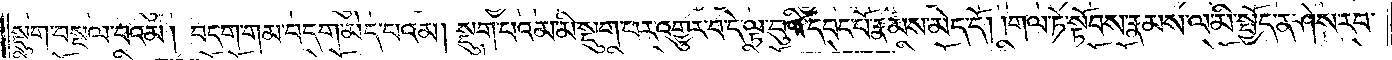སྡུག་བསྔལ་བའམ། བདག་གམ་བདག་མེད་པའམ། སྡུག་པའམ་མི་སྡུག་པར་འགྱུར་བ་དེ་ལྟ་བུའི་དབང་པོ་རྣམས་མེད་དོ། །གལ་ཏེ་སྟོབས་རྣམས་ལ་མི་སྤྱོད་ན་ཤེས་རབ་
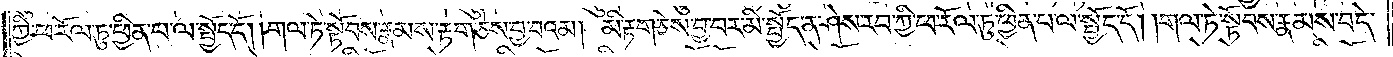ཀྱི་ཕ་རོལ་ཏུ་ཕྱིན་པ་ལ་སྤྱོད་དོ། །གལ་ཏེ་སྟོབས་རྣམས་རྟག་ཅེས་བྱ་བའམ། མི་རྟག་ཅེས་བྱ་བར་མི་སྤྱོད་ན་ཤེས་རབ་ཀྱི་ཕ་རོལ་ཏུ་ཕྱིན་པ་ལ་སྤྱོད་དོ། །གལ་ཏེ་སྟོབས་རྣམས་བདེ་
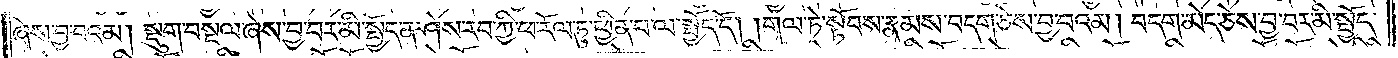ཞེས་བྱ་བའམ། སྡུག་བསྔལ་ཞེས་བྱ་བར་མི་སྤྱོད་ན་ཤེས་རབ་ཀྱི་ཕ་རོལ་ཏུ་ཕྱིན་པ་ལ་སྤྱོད་དོ། །གལ་ཏེ་སྟོབས་རྣམས་བདག་ཅེས་བྱ་བའམ། བདག་མེད་ཅེས་བྱ་བར་མི་སྤྱོད་
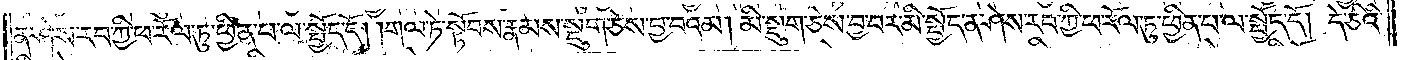ན་ཤེས་རབ་ཀྱི་ཕ་རོལ་ཏུ་ཕྱིན་པ་ལ་སྤྱོད་དོ། །གལ་ཏེ་སྟོབས་རྣམས་སྡུག་ཅེས་བྱ་བའམ། མི་སྡུག་ཅེས་བྱ་བར་མི་སྤྱོད་ན་ཤེས་རབ་ཀྱི་ཕ་རོལ་ཏུ་ཕྱིན་པ་ལ་སྤྱོད་དོ། །དེ་ཅིའི་
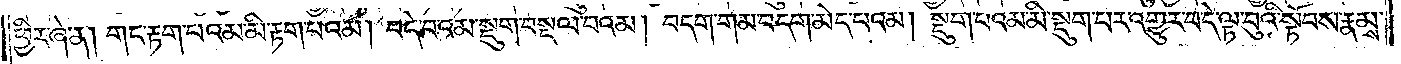ཕྱིར་ཞེ་ན། གང་རྟག་པའམ་མི་རྟག་པའམ། བདེ་བའམ་སྡུག་བསྔལ་བའམ། བདག་གམ་བདག་མེད་པའམ། སྡུག་པའམ་མི་སྡུག་པར་འགྱུར་བ་དེ་ལྟ་བུའི་སྟོབས་རྣམས་
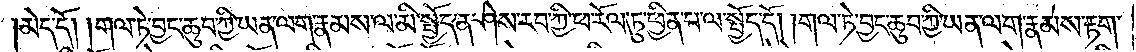མེད་དོ། །གལ་ཏེ་བྱང་ཆུབ་ཀྱི་ཡན་ལག་རྣམས་ལ་མི་སྤྱོད་ན་ཤེས་རབ་ཀྱི་ཕ་རོལ་ཏུ་ཕྱིན་པ་ལ་སྤྱོད་དོ། །གལ་ཏེ་བྱང་ཆུབ་ཀྱི་ཡན་ལག་རྣམས་རྟག་
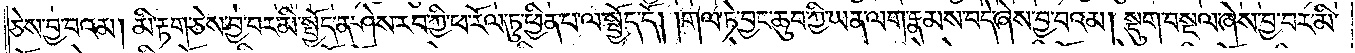ཅེས་བྱ་བའམ། མི་རྟག་ཅེས་བྱ་བར་མི་སྤྱོད་ན་ཤེས་རབ་ཀྱི་ཕ་རོལ་ཏུ་ཕྱིན་པ་ལ་སྤྱོད་དོ། །གལ་ཏེ་བྱང་ཆུབ་ཀྱི་ཡན་ལག་རྣམས་བདེ་ཞེས་བྱ་བའམ། སྡུག་བསྔལ་ཞེས་བྱ་བར་མི་
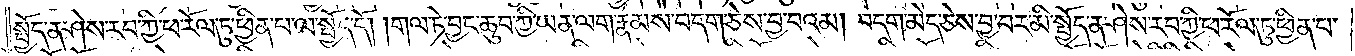སྤྱོད་ན་ཤེས་རབ་ཀྱི་ཕ་རོལ་ཏུ་ཕྱིན་པ་ལ་སྤྱོད་དོ། །གལ་ཏེ་བྱང་ཆུབ་ཀྱི་ཡན་ལག་རྣམས་བདག་ཅེས་བྱ་བའམ། བདག་མེད་ཅེས་བྱ་བར་མི་སྤྱོད་ན་ཤེས་རབ་ཀྱི་ཕ་རོལ་ཏུ་ཕྱིན་པ་
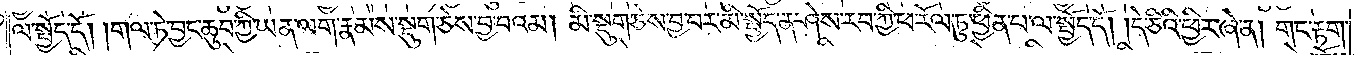ལ་སྤྱོད་དོ། །གལ་ཏེ་བྱང་ཆུབ་ཀྱི་ཡན་ལག་རྣམས་སྡུག་ཅེས་བྱ་བའམ། མི་སྡུག་ཅེས་བྱ་བར་མི་སྤྱོད་ན་ཤེས་རབ་ཀྱི་ཕ་རོལ་ཏུ་ཕྱིན་པ་ལ་སྤྱོད་དོ། །ད་ཅིའི་ཕྱིར་ཞེ་ན། གང་རྟག་
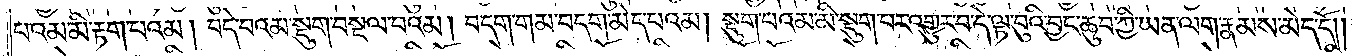པའམ་མི་རྟག་པའམ། བདེ་བའམ་སྡུག་བསྔལ་བའམ། བདག་གམ་བདག་མེད་པའམ། སྡུག་པའམ་མི་སྡུག་པར་འགྱུར་བ་དེ་ལྟ་བུའི་བྱང་ཆུབ་ཀྱི་ཡན་ལག་རྣམས་མེད་དོ། །
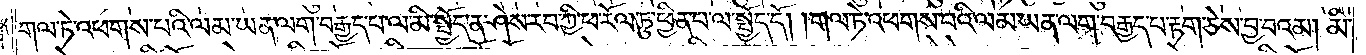གལ་ཏེ་འཕགས་པའི་ལམ་ཡན་ལག་བརྒྱད་པ་ལ་མི་སྤྱོད་ན་ཤེས་རབ་ཀྱི་ཕ་རོལ་ཏུ་ཕྱིན་པ་ལ་སྤྱོད་དོ། །གལ་ཏེ་འཕགས་པའི་ལམ་ཡན་ལག་བརྒྱད་པ་རྟག་ཅེས་བྱ་བའམ། མི་
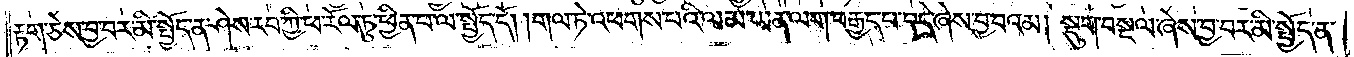རྟག་ཅེས་བྱ་བར་མི་སྤྱོད་ན་ཤེས་རབ་ཀྱི་ཕ་རོལ་ཏུ་ཕྱིན་པ་ལ་སྤྱོད་དོ། །གལ་ཏེ་འཕགས་པའི་ལམ་ཡན་ལག་བརྒྱད་པ་བདེ་ཞེས་བྱ་བའམ། སྡུག་བསྔལ་ཞེས་བྱ་བར་མི་སྤྱོད་ན་
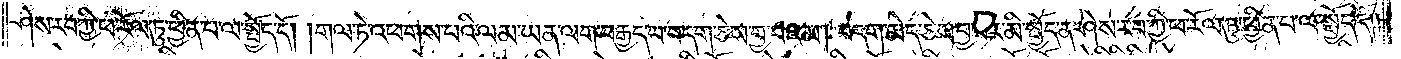ཤེས་རབ་ཀྱི་ཕ་རོལ་ཏུ་ཕྱིན་པ་ལ་སྤྱོད་དོ། །གལ་ཏེ་འཕགས་པའི་ལམ་ཡན་ལག་བརྒྱད་པ་བདག་ཅེས་བྱ་བའམ། བདག་མེད་ཅེས་བྱ་བར་མི་སྤྱོད་ན་ཤེས་རབ་ཀྱི་ཕ་རོལ་ཏུ་ཕྱིན་པ་ལ་སྤྱོད་དོ། །
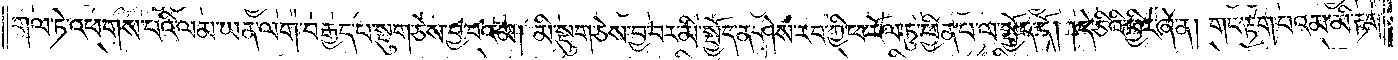གལ་ཏེ་འཕགས་པའི་ལམ་ཡན་ལག་བརྒྱད་པ་སྡུག་ཅེས་བྱ་བའམ། མི་སྡུག་ཅེས་བྱ་བར་མི་སྤྱོད་ན་ཤེས་རབ་ཀྱི་ཕ་རོལ་ཏུ་ཕྱིན་པ་ལ་སྤྱོད་དོ། །དེ་ཅིའི་ཕྱིར་ཞེ་ན། གང་རྟག་པའམ་མི་རྟག་
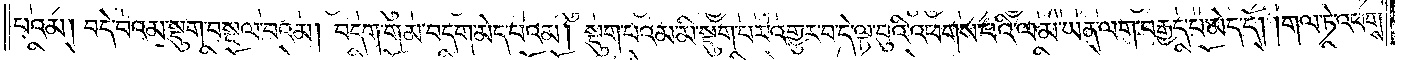པའམ། བདེ་བའམ་སྡུག་བསྔལ་བའམ། བདག་གམ་བདག་མེད་པའམ། སྡུག་པའམ་མི་སྡུག་པར་འགྱུར་བ་དེ་ལྟ་བུའི་འཕགས་པའི་ལམ་ཡན་ལག་བརྒྱད་པ་མེད་དོ། །གལ་ཏེ་འཕགས་
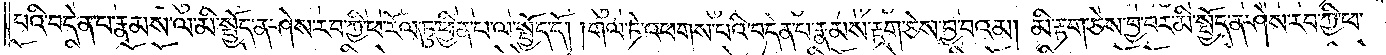པའི་བདེན་པ་རྣམས་ལ་མི་སྤྱོད་ན་ཤེས་རབ་ཀྱི་ཕ་རོལ་ཏུ་ཕྱིན་པ་ལ་སྤྱོད་དོ། །གལ་ཏེ་འཕགས་པའི་བདེན་པ་རྣམས་རྟག་ཅེས་བྱ་བའམ། མི་རྟག་ཅེས་བྱ་བར་མི་སྤྱོད་ན་ཤེས་རབ་ཀྱི་ཕ་
